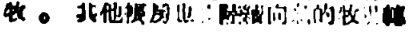牧 。其他帳房也都陸續向新的牧場轉
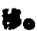移。
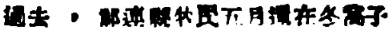過去 ，祁連縣牧民五月還在冬窩子
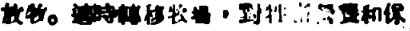放牧。適時轉移牧場，對牲畜營養和保
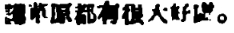護草原都有很大好處。
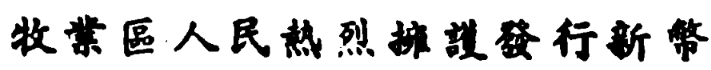牧業區人民熱烈擁護發行新幣
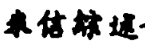來信綜述
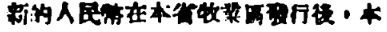新的人民幣在本省牧業區發行後，本
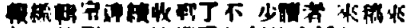報編輯室連續收到了不 少讀者 來稿來
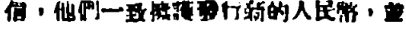信，他們一致擁護發行新的人民幣，並
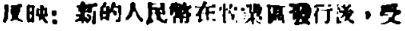反映：新的人民幣在牧業區發行後，受
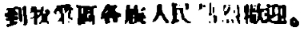到牧業區各族人民熱烈歡迎。
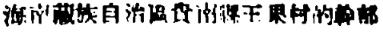海南藏族自治區貴南縣王果村的幹部
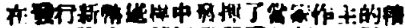在發行新幣過程中發揮了當家作主的積
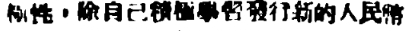極性，除自己積極學習發行新的人民幣
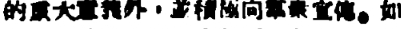的重大意義外，並積極向羣衆宣傳。如
